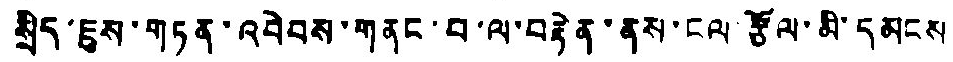སྲིད་ཇུས་གཏན་འབེབས་གནང་བ་ལ་བརྟེན་ནས་ངལ་རྩོལ་མི་དམངས
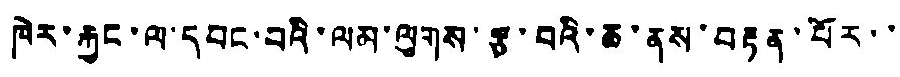ཁེར་རྐྱང་ལ་དབང་བའི་ལམ་ལུགས་རྩ་བའི་ཆ་ནས་བརྟན་པོར་་
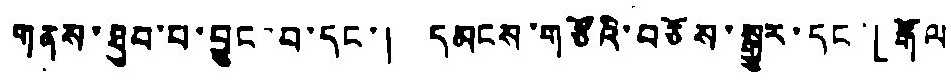གནས་ཐུབ་པ་བྱུང་བ་དང་། དམངས་གཙོའི་བཅོས་སྒྱུར་དང་「རྒོལ
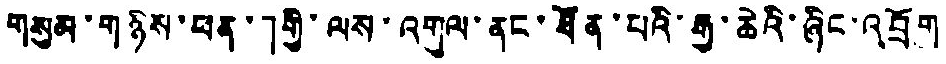གསུམ་གཉིས་ཕན་」གྱི་ལས་འགུལ་ནང་ཐོན་པའི་རྒྱ་ཆེའི་ཞིང་འབྲོག
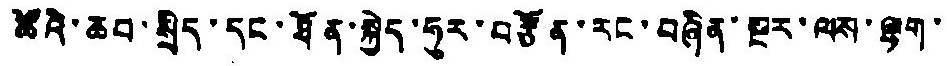ཚོའི་ཆབ་སྲིད་དང་ཐོན་སྐྱེད་ཧུར་བརྩོན་རང་བཞིན་སྔར་ལས་ལྷག་
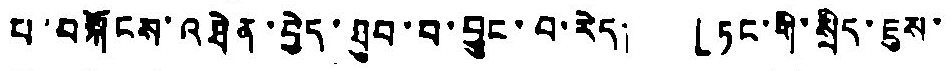པ་བསྐོངས་འཐེན་བྱེད་ཐུབ་པ་བྱུང་བ་རེད། 「ཏང་གི་སྲིད་ཇུས་
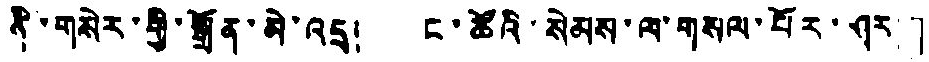ནི་གསེར་གྱི་སྒྲོན་མེ་འདྲ། ང་ཚོའི་སེམས་ལ་གསལ་པོར་ཤར།」
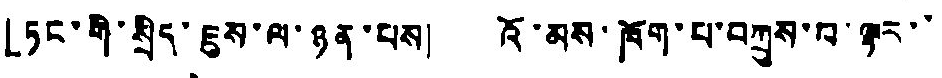「ཏང་གི་སྲིད་ཇུས་ལ་ཉན་པས། འོ་མས་ཁོག་པ་བཀྲས་པ་ལྟར་་
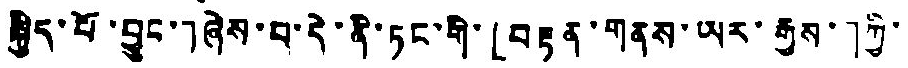སྐྱིད་པོ་བྱུང་」ཞེས་པ་དེ་ནི་ཏང་གི་「བརྟན་གནས་ཡར་རྒྱས་」ཀྱི་
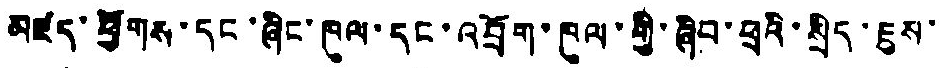མཛད་ཕྱོགས་དང་ཞིང་ཁུལ་དང་འབྲོག་ཁུལ་གྱི་ཞིབ་ཕྲའི་སྲིད་ཇུས་
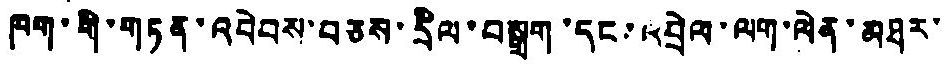ཁག་གི་གཏན་འབེབས་བཅས་དྲིལ་བསྒྲག་དང་འབྲེལ་ལག་ལེན་མཐར་
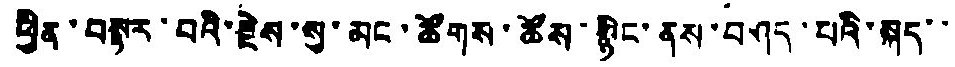ཕྱིན་བསྟར་བའི་རྗེས་སུ་མང་ཚོགས་ཚོས་སྙིང་ནས་བཤད་པའི་སྐད་་
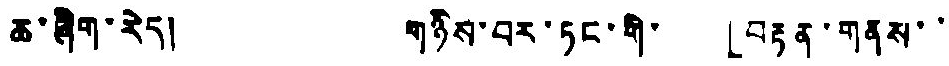ཆ་ཞིག་རེད། གཉིས་བར་ཏང་གི་ 「བརྟན་གནས་་
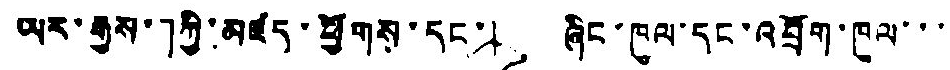ཡར་རྒྱས་」ཀྱི་མཛད་ཕྱོགས་དང་། ཞིང་ཁུལ་དང་འབྲོག་ཁུལ་་་
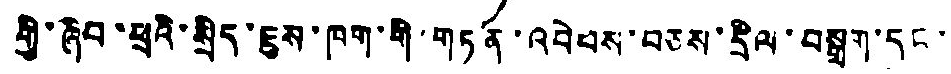གྱི་ཞིབ་ཕྲའི་སྲིད་ཇུས་ཁག་གི་གཏན་འབེབས་བཅས་དྲིལ་བསྒྲག་དང་
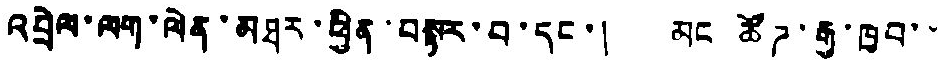འབྲེལ་ལག་ལེན་མཐར་ཕྱིན་བསྟར་བ་དང་། མང ཚོཌ་རྒྱ་ཁྱབ་་
